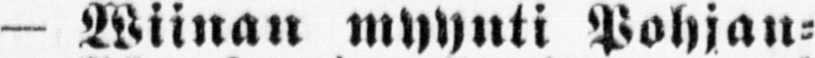— Wiinan myynti Pohjan-
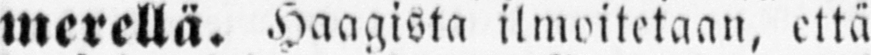merellä. Haagista ilmoitetaan, että
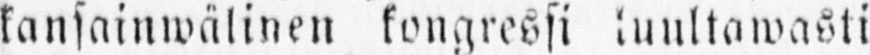kansainwälinen kongressi luultawasti
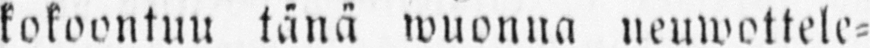kokoontuu tänä wuonna neuwottele-
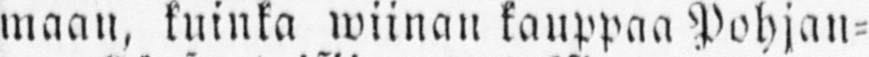maan, kuinka wiinan kauppaa Pohjan-
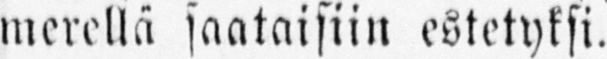merellä saataisiin estetyksi.
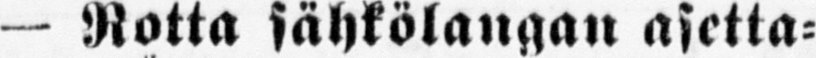— Rotta sähkölangan asetta-
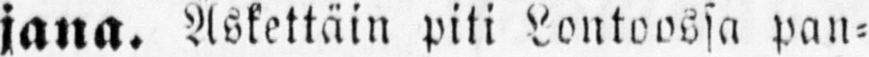jana. Äskettäin piti Lontoossa pan-
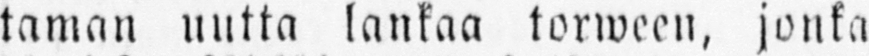taman uutta lankaa torween, jonka
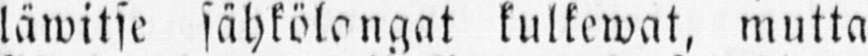läwitse sähkölöngat kulkewat, mutta
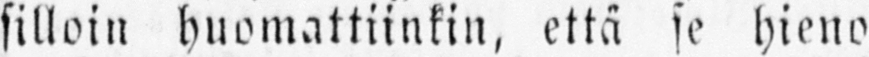silloin huomattiinkin, että se hieno
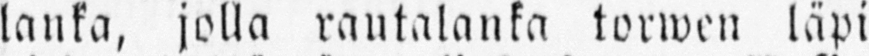lanka, jolla rautalanka torwen läpi
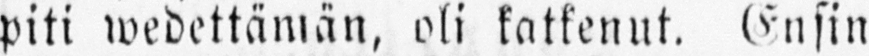piti wedettämän, oli katkenut. Ensin
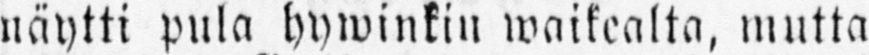näytti pula hywinkin waikealta, mutta
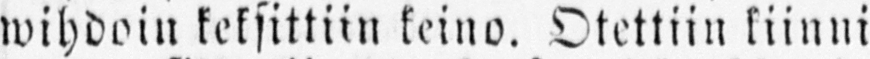wihdoin keksittiin keino. Otettiin kiinni
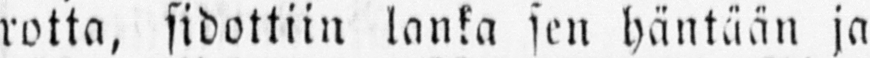rotta, sidottiin lanka sen häntään ja
